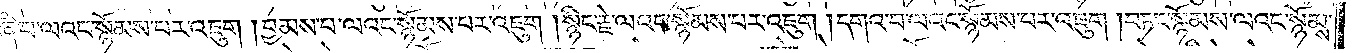བཞི་པ་ལའང་སྙོམས་པར་འཇུག །བྱམས་པ་ལའང་སྙོམས་པར་འཇུག །སྙིང་རྗེ་ལའང་སྙོམས་པར་འཇུག །དགའ་བ་ལའང་སྙོམས་པར་འཇུག །བཏང་སྙོམས་ལའང་སྙོམས་
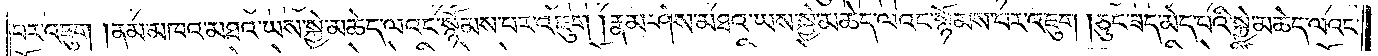པར་འཇུག །ནམ་མཁའ་མཐའ་ཡས་སྐྱེ་མཆེད་ལའང་སྙོམས་པར་འཇུག །རྣམ་ཤེས་མཐའ་ཡས་སྐྱེ་མཆེད་ལའང་སྙོམས་པར་འཇུག །ཅུང་ཟད་མེད་པའི་སྐྱེ་མཆེད་ལའང་
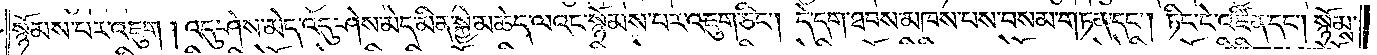སྙོམས་པར་འཇུག །འདུ་ཤེས་མེད་འདུ་ཤེས་མེད་མིན་སྐྱེ་མཆེད་ལའང་སྙོམས་པར་འཇུག་ཅིང༌། དེ་དག་ཐབས་མཁས་པས་བསམ་གཏན་དང༌། ཏིང་ངེ་འཛིན་དང༌། སྙོམས་
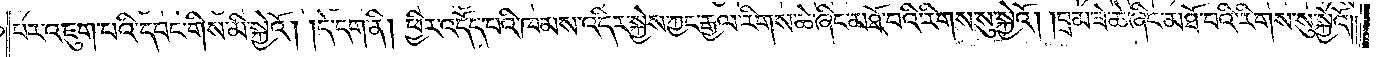པར་འཇུག་པའི་དབང་གིས་མི་སྐྱེའོ། །དེ་དག་ནི། ཕྱིར་འདོད་པའི་ཁམས་འདིར་སྐྱེས་ཀྱང་རྒྱལ་རིགས་ཆེ་ཞིང་མཐོ་བའི་རིགས་སུ་སྐྱེའོ། །བྲམ་ཟེ་ཆེ་ཞིང་མཐོ་བའི་རིགས་སུ་སྐྱེའོ༎
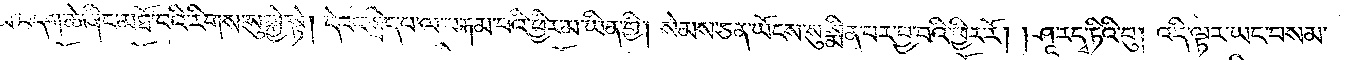ཁྱིམ་བདག་ཆེ་ཞིང་མཐོ་བའི་རིགས་སུ་སྐྱེ་སྟེ། དེའང་སྲིད་པ་ལ་བརྐམ་པའི་ཕྱིར་མ་ཡིན་གྱི། སེམས་ཅན་ཡོངས་སུ་སྨིན་པར་བྱ་བའི་ཕྱིར་རོ། །ཤཱ་ར་དྭ་ཏིའི་བུ། འདི་ལྟར་ཡང་བསམ་
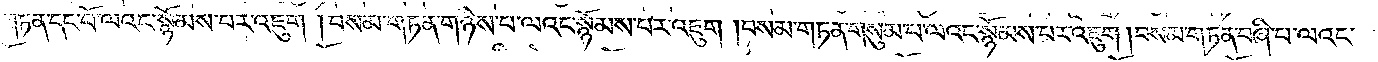གཏན་དང་པོ་ལའང་སྙོམས་པར་འཇུག །བསམ་གཏན་གཉིས་པ་ལའང་སྙོམས་པར་འཇུག །བསམ་གཏན་གསུམ་པ་ལའང་སྙོམས་པར་འཇུག །བསམ་གཏན་བཞི་པ་ལའང་
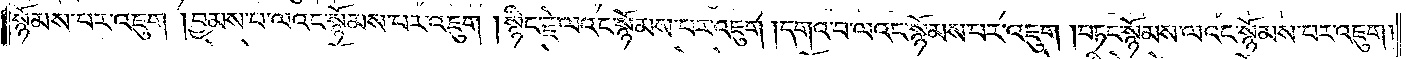སྙོམས་པར་འཇུག །བྱམས་པ་ལའང་སྙོམས་པར་འཇུག །སྙིང་རྗེ་ལའང་སྙོམས་པར་འཇུག །དགའ་བ་ལའང་སྙོམས་པར་འཇུག །བཏང་སྙོམས་ལའང་སྙོམས་པར་འཇུག །
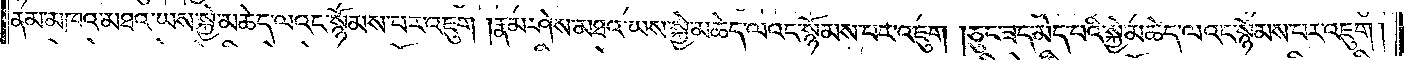ནམ་མཁའ་མཐའ་ཡས་སྐྱེ་མཆེད་ལའང་སྙོམས་པར་འཇུག །རྣམ་ཤེས་མཐའ་ཡས་སྐྱེ་མཆེད་ལའང་སྙོམས་པར་འཇུག །ཅུང་ཟད་མེད་པའི་སྐྱེ་མཆེད་ལའང་སྙོམས་པར་འཇུག །
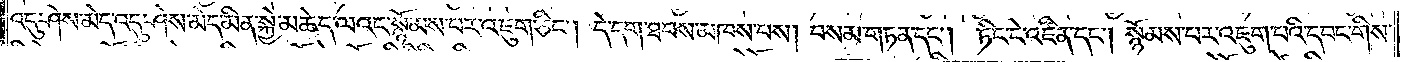འདུ་ཤེས་མེད་འདུ་ཤེས་མེད་མིན་སྐྱེ་མཆེད་ལའང་སྙོམས་པར་འཇུག་ཅིང༌། དེ་དག་ཐབས་མཁས་པས། བསམ་གཏན་དང༌། ཏིང་ངེ་འཛིན་དང༌། སྙོམས་པར་འཇུག་པའི་དབང་གིས་
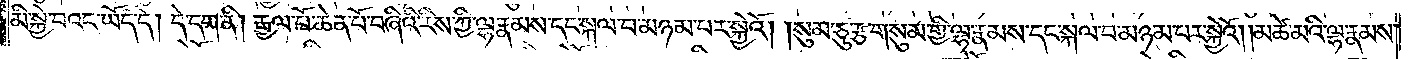མི་སྐྱེ་བའང་ཡོད་དེ། དེ་དག་ནི། རྒྱལ་པོ་ཆེན་པོ་བཞིའི་རིས་ཀྱི་ལྷ་རྣམས་དང་སྐལ་བ་མཉམ་པར་སྐྱེའོ། །སུམ་ཅུ་རྩ་གསུམ་གྱི་ལྷ་རྣམས་དང་སྐལ་བ་མཉམ་པར་སྐྱེའོ། །མཚེ་མའི་ལྷ་རྣམས་
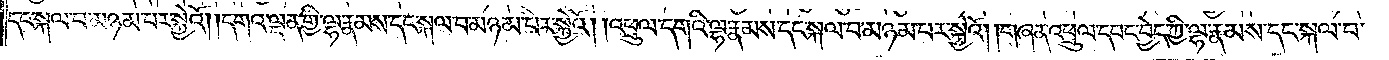དང་སྐལ་བ་མཉམ་པར་སྐྱེའོ། །དགའ་ལྡན་གྱི་ལྷ་རྣམས་དང་སྐལ་བ་མཉམ་པར་སྐྱེའོ། །འཕྲུལ་དགའི་ལྷ་རྣམས་དང་སྐལ་བ་མཉམ་པར་སྐྱེའོ། །གཞན་འཕྲུལ་དབང་བྱེད་ཀྱི་ལྷ་རྣམས་དང་སྐལ་བ་
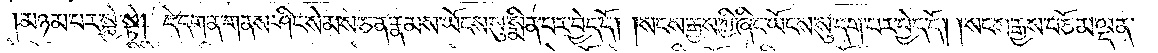མཉམ་པར་སྐྱེ་སྟེ། དེ་དག་ན་གནས་ཤིང་སེམས་ཅན་རྣམས་ཡོངས་སུ་སྨིན་པར་བྱེད་དོ། །སངས་རྒྱས་ཀྱི་ཞིང་ཡོངས་སུ་དག་པར་བྱེད་དོ། །སངས་རྒྱས་བཅོམ་ལྡན་
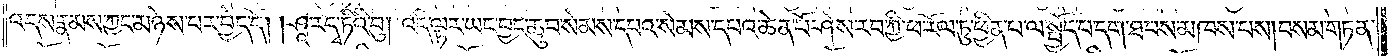འདས་རྣམས་ཀྱང་མཉེས་པར་བྱེད་དོ། །ཤཱ་ར་དྭ་ཏིའི་བུ། འདི་ལྟར་ཡང་བྱང་ཆུབ་སེམས་དཔའ་སེམས་དཔའ་ཆེན་པོ་ཤེས་རབ་ཀྱི་ཕ་རོལ་ཏུ་ཕྱིན་པ་ལ་སྤྱོད་པ་དག་ཐབས་མཁས་པས། བསམ་གཏན་
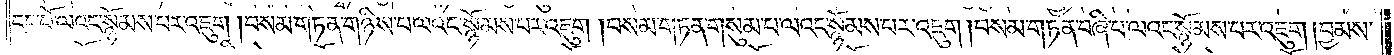དང་པོ་ལའང་སྙོམས་པར་འཇུག །བསམ་གཏན་གཉིས་པ་ལའང་སྙོམས་པར་འཇུག །བསམ་གཏན་གསུམ་པ་ལའང་སྙོམས་པར་འཇུག །བསམ་གཏན་བཞི་པ་ལའང་སྙོམས་པར་འཇུག །བྱམས་
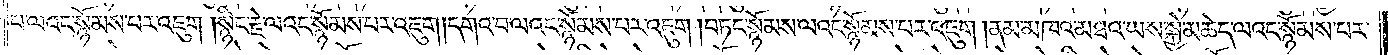པ་ལའང་སྙོམས་པར་འཇུག །སྙིང་རྗེ་ལའང་སྙོམས་པར་འཇུག །དགའ་བ་ལའང་སྙོམས་པར་འཇུག །བཏང་སྙོམས་ལའང་སྙོམས་པར་འཇུག །ནམ་མཁའ་མཐའ་ཡས་སྐྱེ་མཆེད་ལའང་སྙོམས་པར་
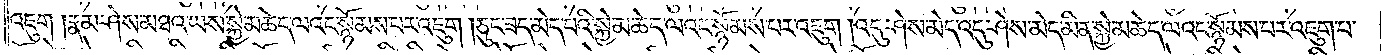འཇུག །རྣམ་ཤེས་མཐའ་ཡས་སྐྱེ་མཆེད་ལའང་སྙོམས་པར་འཇུག །ཅུང་ཟད་མེད་པའི་སྐྱེ་མཆེད་ལའང་སྙོམས་པར་འཇུག །འདུ་ཤེས་མེད་འདུ་ཤེས་མེད་མིན་སྐྱེ་མཆེད་ལའང་སྙོམས་པར་འཇུག་པ་
